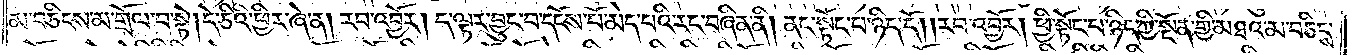མ་བཅིངས་མ་གྲོལ་བ་སྟེ། དེ་ཅིའི་ཕྱིར་ཞེ་ན། རབ་འབྱོར། ད་ལྟར་བྱུང་བ་དངོས་པོ་མེད་པའི་རང་བཞིན་ནི། ནང་སྟོང་པ་ཉིད་དོ། །རབ་འབྱོར། ཕྱི་སྟོང་པ་ཉིད་ཀྱི་སྔོན་གྱི་མཐའ་མ་བཅིངས་
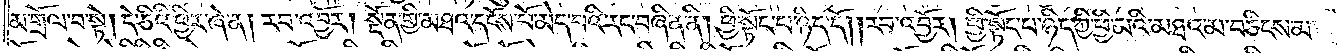མ་གྲོལ་བ་སྟེ། དེ་ཅིའི་ཕྱིར་ཞེ་ན། རབ་འབྱོར། སྔོན་གྱི་མཐའ་དངོས་པོ་མེད་པའི་རང་བཞིན་ནི། ཕྱི་སྟོང་པ་ཉིད་དོ། །རབ་འབྱོར། ཕྱི་སྟོང་པ་ཉིད་ཀྱི་ཕྱི་མའི་མཐའ་མ་བཅིངས་མ་
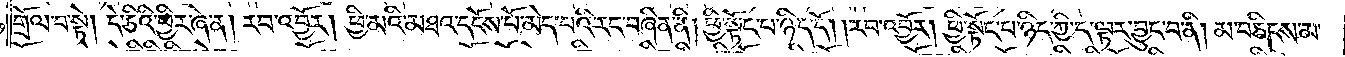གྲོལ་བ་སྟེ། དེ་ཅིའི་ཕྱིར་ཞེ་ན། རབ་འབྱོར། ཕྱི་མའི་མཐའ་དངོས་པོ་མེད་པའི་རང་བཞིན་ནི། ཕྱི་སྟོང་པ་ཉིད་དོ། །རབ་འབྱོར། ཕྱི་སྟོང་པ་ཉིད་ཀྱི་ད་ལྟར་བྱུང་བ་ནི། མ་བཅིངས་མ་
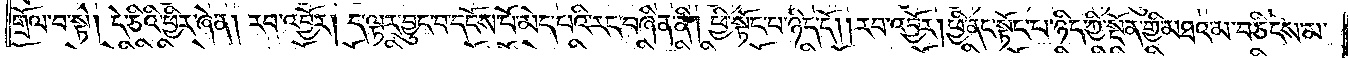གྲོལ་བ་སྟེ། དེ་ཅིའི་ཕྱིར་ཞེ་ན། རབ་འབྱོར། ད་ལྟར་བྱུང་བ་དངོས་པོ་མེད་པའི་རང་བཞིན་ནི། ཕྱི་སྟོང་པ་ཉིད་དོ། །རབ་འབྱོར། ཕྱི་ནང་སྟོང་པ་ཉིད་ཀྱི་སྔོན་གྱི་མཐའ་མ་བཅིངས་མ་
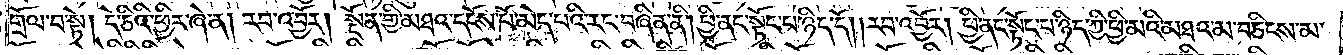གྲོལ་བ་སྟེ། དེ་ཅིའི་ཕྱིར་ཞེ་ན། རབ་འབྱོར། སྔོན་གྱི་མཐའ་དངོས་པོ་མེད་པའི་རང་བཞིན་ནི། ཕྱི་ནང་སྟོང་པ་ཉིད་དོ། །རབ་འབྱོར། ཕྱི་ནང་སྟོང་པ་ཉིད་ཀྱི་ཕྱི་མའི་མཐའ་མ་བཅིངས་མ་
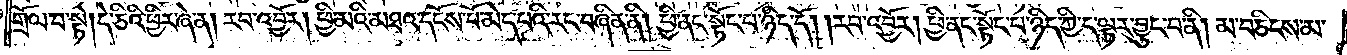གྲོལ་བ་སྟེ། དེ་ཅིའི་ཕྱིར་ཞེ་ན། རབ་འབྱོར། ཕྱི་མའི་མཐའ་དངོས་པོ་མེད་པའི་རང་བཞིན་ནི། ཕྱི་ནང་སྟོང་པ་ཉིད་དོ། །རབ་འབྱོར། ཕྱི་ནང་སྟོང་པ་ཉིད་ཀྱི་ད་ལྟར་བྱུང་བ་ནི། མ་བཅིངས་མ་
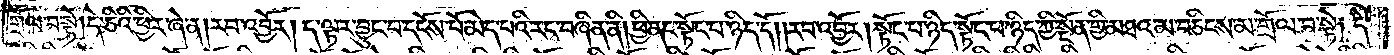གྲོལ་བ་སྟེ། དེ་ཅིའི་ཕྱིར་ཞེ་ན། རབ་འབྱོར། ད་ལྟར་བྱུང་བ་དངོས་པོ་མེད་པའི་རང་བཞིན་ནི། ཕྱི་ནང་སྟོང་པ་ཉིད་དོ། །རབ་འབྱོར། སྟོང་པ་ཉིད་སྟོང་པ་ཉིད་ཀྱི་སྔོན་གྱི་མཐའ་མ་བཅིངས་མ་གྲོལ་བ་སྟེ། དེ་
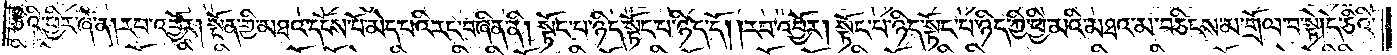ཅིའི་ཕྱིར་ཞེ་ན། རབ་འབྱོར། སྔོན་གྱི་མཐའ་དངོས་པོ་མེད་པའི་རང་བཞིན་ནི། སྟོང་པ་ཉིད་སྟོང་པ་ཉིད་དོ། །རབ་འབྱོར། སྟོང་པ་ཉིད་སྟོང་པ་ཉིད་ཀྱི་ཕྱི་མའི་མཐའ་མ་བཅིངས་མ་གྲོལ་བ་སྟེ། དེ་ཅིའི་
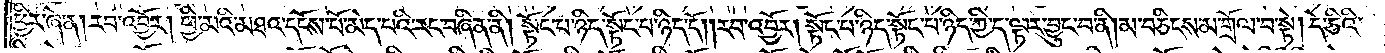ཕྱིར་ཞེ་ན། རབ་འབྱོར། ཕྱི་མའི་མཐའ་དངོས་པོ་མེད་པའི་རང་བཞིན་ནི། སྟོང་པ་ཉིད་སྟོང་པ་ཉིད་དོ། །རབ་འབྱོར། སྟོང་པ་ཉིད་སྟོང་པ་ཉིད་ཀྱི་ད་ལྟར་བྱུང་བ་ནི། མ་བཅིངས་མ་གྲོལ་བ་སྟེ། དེ་ཅིའི་
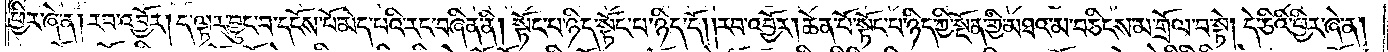ཕྱིར་ཞེ་ན། རབ་འབྱོར། ད་ལྟར་བྱུང་བ་དངོས་པོ་མེད་པའི་རང་བཞིན་ནི། སྟོང་པ་ཉིད་སྟོང་པ་ཉིད་དོ། །རབ་འབྱོར། ཆེན་པོ་སྟོང་པ་ཉིད་ཀྱི་སྔོན་གྱི་མཐའ་མ་བཅིངས་མ་གྲོལ་བ་སྟེ། དེ་ཅིའི་ཕྱིར་ཞེ་ན།
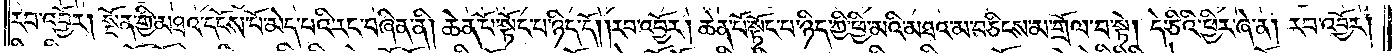རབ་འབྱོར། སྔོན་གྱི་མཐའ་དངོས་པོ་མེད་པའི་རང་བཞིན་ནི། ཆེན་པོ་སྟོང་པ་ཉིད་དོ། །རབ་འབྱོར། ཆེན་པོ་སྟོང་པ་ཉིད་ཀྱི་ཕྱི་མའི་མཐའ་མ་བཅིངས་མ་གྲོལ་བ་སྟེ། དེ་ཅིའི་ཕྱིར་ཞེ་ན། རབ་འབྱོར།
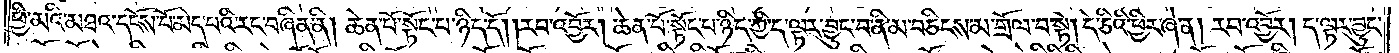ཕྱི་མའི་མཐའ་དངོས་པོ་མེད་པའི་རང་བཞིན་ནི། ཆེན་པོ་སྟོང་པ་ཉིད་དོ། །རབ་འབྱོར། ཆེན་པོ་སྟོང་པ་ཉིད་ཀྱི་ད་ལྟར་བྱུང་བ་ནི་མ་བཅིངས་མ་གྲོལ་བ་སྟེ། དེ་ཅིའི་ཕྱིར་ཞེ་ན། རབ་འབྱོར། ད་ལྟར་བྱུང་
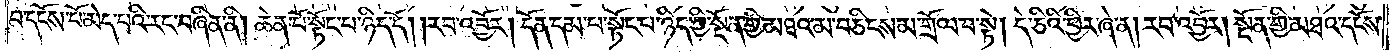བ་དངོས་པོ་མེད་པའི་རང་བཞིན་ནི། ཆེན་པོ་སྟོང་པ་ཉིད་དོ། །རབ་འབྱོར། དོན་དམ་པ་སྟོང་པ་ཉིད་ཀྱི་སྔོན་གྱི་མཐའ་མ་བཅིངས་མ་གྲོལ་བ་སྟེ། དེ་ཅིའི་ཕྱིར་ཞེ་ན། རབ་འབྱོར། སྔོན་གྱི་མཐའ་དངོས་
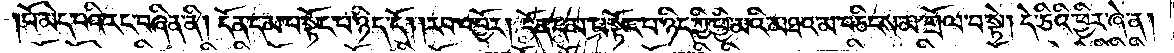པོ་མེད་པའི་རང་བཞིན་ནི། དོན་དམ་པ་སྟོང་པ་ཉིད་དོ། །རབ་འབྱོར། དོན་དམ་པ་སྟོང་པ་ཉིད་ཀྱི་ཕྱི་མའི་མཐའ་མ་བཅིངས་མ་གྲོལ་བ་སྟེ། དེ་ཅིའི་ཕྱིར་ཞེ་ན།
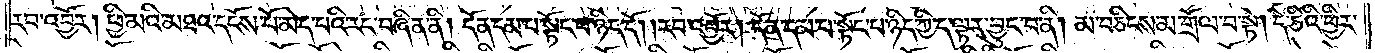རབ་འབྱོར། ཕྱི་མའི་མཐའ་དངོས་པོ་མེད་པའི་རང་བཞིན་ནི། དོན་དམ་པ་སྟོང་པ་ཉིད་དོ། །རབ་འབྱོར། དོན་དམ་པ་སྟོང་པ་ཉིད་ཀྱི་ད་ལྟར་བྱུང་བ་ནི། མ་བཅིངས་མ་གྲོལ་བ་སྟེ། དེ་ཅིའི་ཕྱིར་
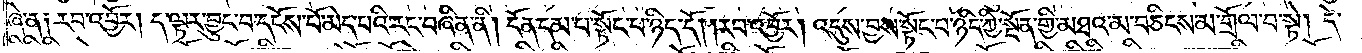ཞེ་ན༑ རབ་འབྱོར། ད་ལྟར་བྱུང་བ་དངོས་པོ་མེད་པའི་རང་བཞིན་ནི། དོན་དམ་པ་སྟོང་པ་ཉིད་དོ། །རབ་འབྱོར། འདུས་བྱས་སྟོང་པ་ཉིད་ཀྱི་སྔོན་གྱི་མཐའ་མ་བཅིངས་མ་གྲོལ་བ་སྟེ། དེ་
